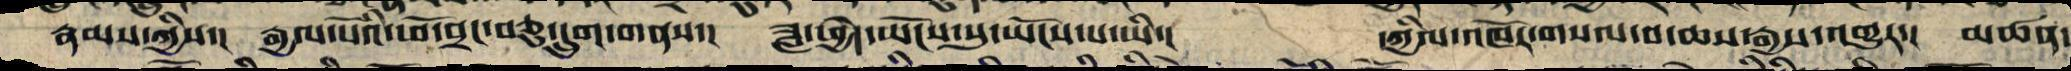རྣམས་ཀྱིས་། རྒྱལ་བའི་ཕོ་བྲང་བཅུ་དྲུག་གནས་། ཟླ་ཕྱེད་ཡོངས་སུ་ཡོངས་པ་ཡི་།             དཀྱིལ་འཁོར་གསལ་བ་ཆས་རྒྱས་འགྱུར་། མཚན་
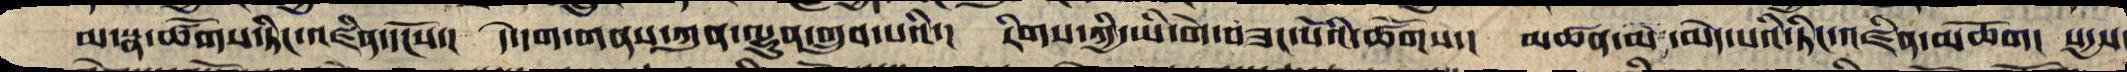མ་སྣ་ཚོགས་ཏིང་འཛིན་དངོས་། དེ་དག་གནས་ཀུན་ལྷུན་གྲུབ་པའི་། རིགས་ཀྱི་ཡི་གེ་བཟང་པོའི་ཚོགས་།  མཚན་མ་མེད་པའི་ཏིང་འཛིན་མཆོག། སདྱས
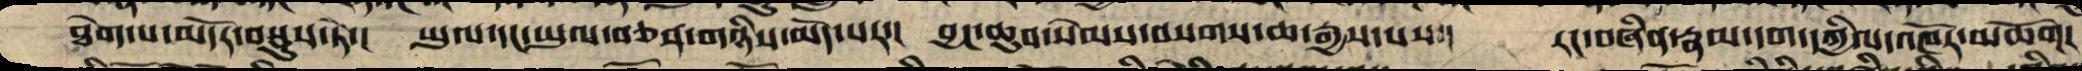ཐེག་པ་མདོར་བསྡུས་ཏེ་། ཡུལ་དང་ཡུལ་ཅན་གཉིས་མེད་པར་། བྱང་ཆུབ་སེམས་བསགས་ཆ་རྒྱས་པས་། རང་བཞིན་རྣམ་དག་དཀྱིལ་འཁོར་མཆོག།
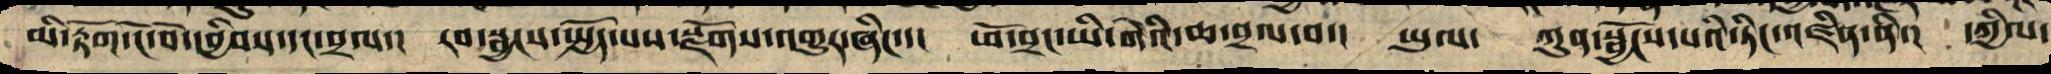མི་རྟོག་ངོ་བོ་དབྱིབས་དང་བྲལ་། རབ་སྦྱངས་སྤྱོད་པས་སྫོགས་འགྱུར་ཞིང་་། ཕོ་བྲང་ཡི་གེའི་ཆ་བྲལ་བ་། ཡུལ་   ཀུན་སྦྱོངས་པའི་ཏིང་འཛིན་ནི། དཀྱིལ་
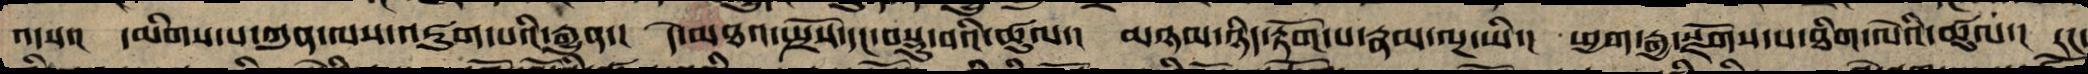འདས་། དམིགས་པ་ཀུན་ནས་འཇུག་པའི་རྒྱུན་། དེ་མཐའ་སྤྲོས་དང་བསྡུ་བའི་ཚུལ་། མཉམ་ཉིད་རྟོག་པ་རྣམ་ལྔ་ཡི་། ཕྱག་རྒྱ་སྫོགས་པ་ཐིག་ལེའི་ཚུལ་། རང་
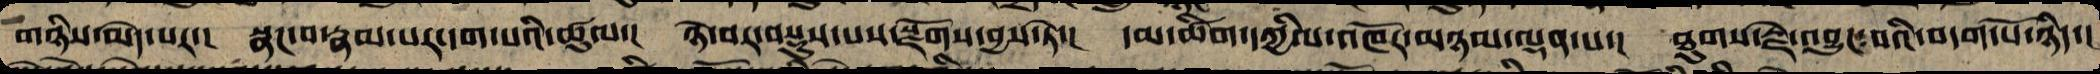གཉིས་མེད་པར་། སྣང་བ་རྣམ་པར་དག་པའི་ཚུལ་། ཉེ་བར་བསྡུས་པས་སྫས་བྱས་ཏེ་། དམ་ཚིག་དཀྱིལ་འཁོར་མཉམ་ལྡན་པ་། ཐུགས་རྗེ་འབྱུང་བའི་བདག་པོ་ཉིད་།
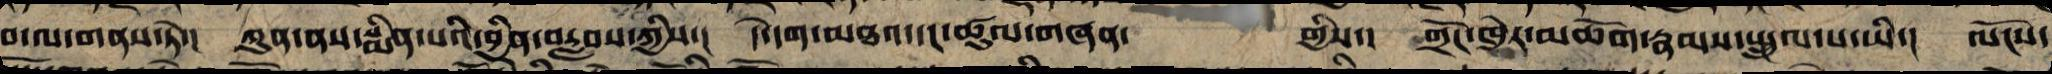བ་ལ་གནས་ཏེ་། ཀུན་ནས་སྨིན་པའི་བྱིན་བརླབས་ཀྱིས་། དེ་དག་མཐའ་དང་ཚུལ་གཞན་གྱིས་། གྲོང་ཁྱེར་མཆོག་རྣམས་སྤྲུལ་པ་ཡི་། ལོངས་
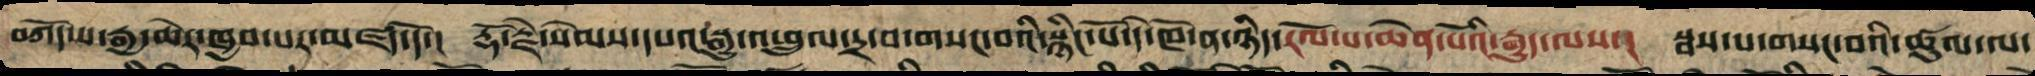བཀོད་པ་རྒྱ་ཆེར་ཁྱབ་པར་མཛད་དོ་། རྡོ་རྗེ་སེམས་དཔའ་སྒྱུ་འཕྲུལ་དྲ་བ་གསང་བའི་སྙིང་པོ་དེ་ཁོ་ན་ཉིད་རོལ་པ་ཆེན་པོའི་རྒྱུད་ལས་། སྦས་པ་གསང་བའི་ཚུལ་ལ་
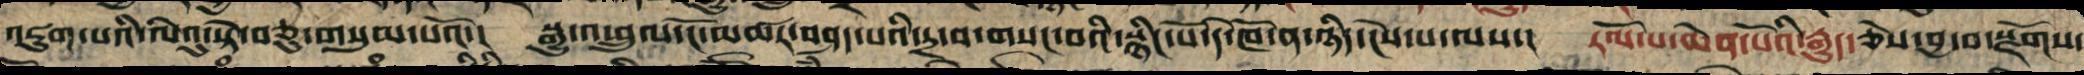འཇུག་པའི་ལེའུ་སྟེ་བཅུ་གསུམ་པའོ་།།   སྒྱུ་འཕྲུལ་ངོ་མཚར་བཤད་པའི་དྲ་བ་གསང་བའི་སྙིང་པོ་དེ་ཁོ་ན་ཉིད་ངེས་པ་ལས་། རོལ་པ་ཆེན་པོའི་རྒྱུད་ཅེས་བྱ་བ་སྫོགས་
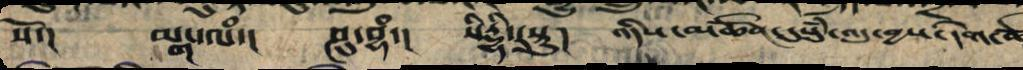སོ་།།   མངྒ་ལཾ་། ཤུ་བྷཾ་། སིདྡྷི་རསྟུ་། འདིས་མཚོན་དུསུཾ་འདུ་བྱས་དགེ་ཚོ
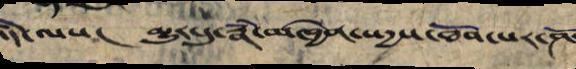འདི་ལས། མྱུར་དུ་རྣཾ་མཁྱེན་སདྱས་ཐོབ་པར་ཤོ
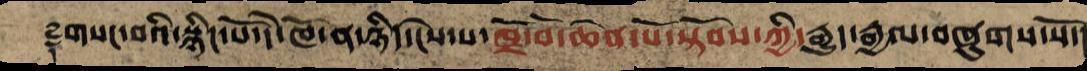༈གསང་བའི་སྙིང་པོ་དེ་ཁོ་ན་ཉིད་ངེས་པ་ཁྲོ་བོ་ཆེན་པོ་སྟོབས་ཀྱི་རྒྱུད་རྒྱལ་བཞུགས་སོ་།
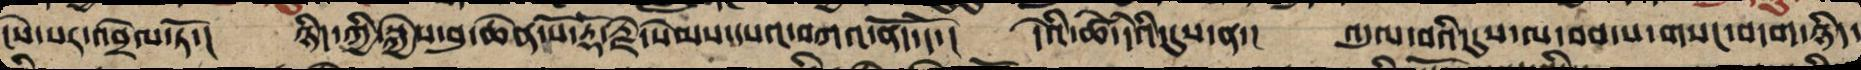ངེས་པར་འབྲེལ་ཏོ་། ཉིད་ཀྱི་སྐྱེས་བུ་ཆེན་པོ་རྡོ་རྗེ་སེམས་དཔའ་བཀའ་ནོད་དོ་། དེའི་ཚེ་དེའི་དུས་ན་། འདུལ་བའི་དུས་ལ་བབས་པ་གསང་བདག་ཉིད་
